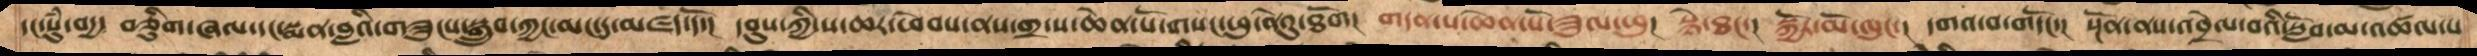དང་སུཾ་བདྱ་  བཅིུག་ཞལ་དང་སྨན་བླའི་གཟུངས་སྒྲུབ་ཀྱང་མང་དུ་མཛད་དོ་།  དབུས་ཀྱི་ས་ཆར་ཕེབས་ནས་གྲ་ས་ཆེན་པོ་གསང་ཕུ་ནེའུ་ཐོག།  གདན་ས་ཆེན་པོ་ཟུལ་ཕུ།  སྙེ་ཐང་།  སྐྱོར་མོ་ལུང་།  དགའ་བ་གདོང་།  སྔོན་ནས་འབྲེལ་བའི་སློབ་མ་འཚལ་པ
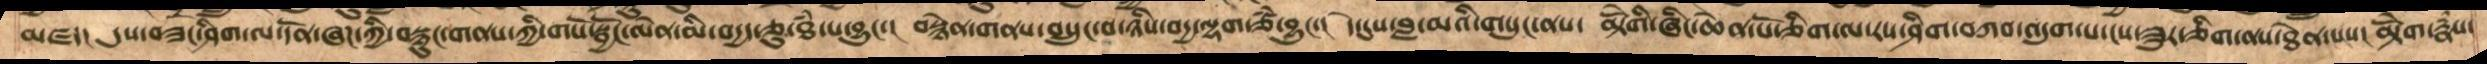མཛད།  དུས་བཟང་ཤིག་ལ་དོན་ཞཌ་ཀྱི་བསྙུང་གནས་ཀྱི་གསོ་སྦྱོང་ལེན་མི་བདྱད་ཅུ་ཐཾ་པ་བྱུང་།  བསྙེན་གནས་བསྲུང་བ་ཉིས་བདྱ་ལྷག་ཙཾ་བྱུང་།  དེ་དུས་བླ་མའི་གསུང་ནས།  མྟེོགི་ཞིང་ཆེན་པོ་ཅིག་ལ་རས་ཤིག་བཀབ་འདུག་པ་ངས་ཟུར་ཅིག་ནས་ཐེན་པས་མྟེོག་རྣཾས་
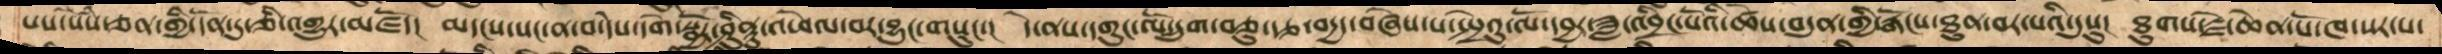པས་སེཾས་ཅན་གྱི་དོན་དུ་ཅི་འགྱུར་མཛོད།   མདངས་སང་ན་བ་དེས་དགེ་སྦྱོར་ཤིནྟུ་འཕེལ་བར་བྱུང་གསུང་།  དེ་ནས་དགུང་ལོ་དྲུག་བཅུ་རྩ་བདྱད་བཞེས་པ་སྤྲེའུ་ལོ་དབྱར་ཟླ་འབྲིང་པའི་ཚེས་བདུན་གྱི་རྒོངས་ཐུན་བར་པའི་དུསུ།   ཐུགས་རྗེ་ཆེན་པོ་ཁ་སར་ས་
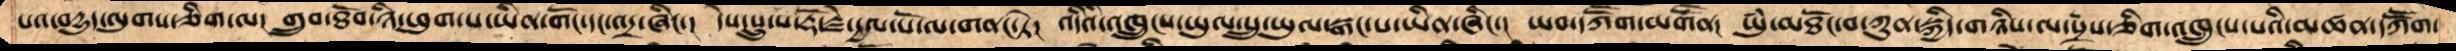པའི་བདྱུད་ལུགས་ཅིག་ལ།  གྲུབ་ཐོབ་ཉི་ཕུག་པ་ཡིན་གོང་དང་འདྲ་ཞིང་།  དེས་སྲུ་པ་རྡོ་རྗེ་དྱལ་པོ་ལ་གནང་ཏེ།  འདིའི་འཁྲུངས་ཡུལ་སྲུ་ཡུལ་སྒང་པ་ཡིན་ཞིང་།  ཡབ་དཀཽག་མགཽན།  ཡུཾ་མཐོང་བ་ཀུན་སྐྱིད་གཉིས་ལ་སྲས་ཅིག་འཁྲུངས་པའི་མཚན་དཀཽག་་
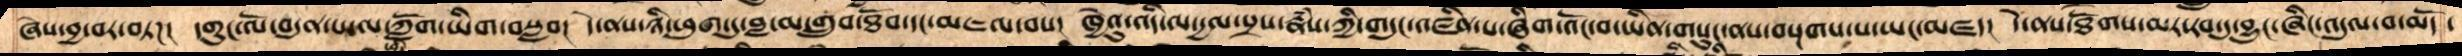ཅེས་བྱ་བར་བཏཌ།  དགུང་ལོ་བདུན་པ་ལ་ཀློག་ཡིག་བསླབ།  དེ་ནས་ཉི་ཕུག་དུ་བླ་མ་གྲུབ་ཐོབ་དང་མཇལ་བས།  ཁྱེའུ་འདི་དྱལ་སྲས་རྣཾས་ཀྱི་གདུང་འཛིན་པ་ཞིག་འོང་བ་ཡིན་གསུང་ནས་བསྔགས་པ་ཡང་མཛད།  དེ་ནས་ཐོགས་མར་རབ་ཏུ་བྱུང་ཞིང་འདུལ་བ་མདོ་
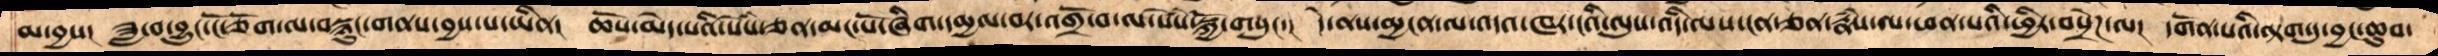མ་བྱས།  ཟླ་བ་བྱུང་ངོ་ཅོག་ལ་བསྙུང་གནས་བྱས་པ་ཡིན།  ཆོས་མེད་པའི་སེཾས་ཅན་མང་པོ་ཞིག་དམྱལ་བར་འགྲོ་བ་ལ་སེཾས་སྐྱོ་གསུང་།  དེ་ནས་མྱངན་ལ་འདའ་ཁར་ངའི་ལུས་ངན་ཅན་རྣཾས་ལ་ཕན་པའི་ཕྱིར་བསྲེཌ་ལ།  དགོན་པའི་ལྟག་དུ་བྱང་ཆུབ་
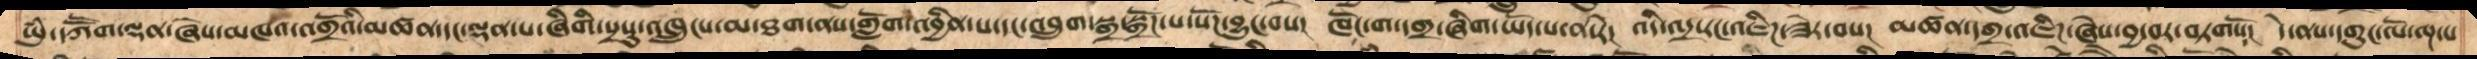ཡུཾ་དཀཽག་ལྡན་ཞེས་མཁའ་འགྲོའི་མཚན་དང་ལྡན་པ་ཞིགི་སྲསུ་འཁྲུངས་མ་ཐག་ནས་གློག་འབྱིན་པ་དང་འབྲུག་སྒྲ་སྒྲོཌ་པ་སོཌ་བྱུང་བས།  ཁོང་ག་དགྲ་ཞིག་ཡོད་པ་ན་རེ།  འདི་འདྲ་རང་འཇིཌ་ཟེར་བས།  མཚན་དགྲ་འཇིཌ་ཞེས་བྱ་བར་བཏགསོ།  དེ་ནས་དགུང་ལོ་ལྔ་པ
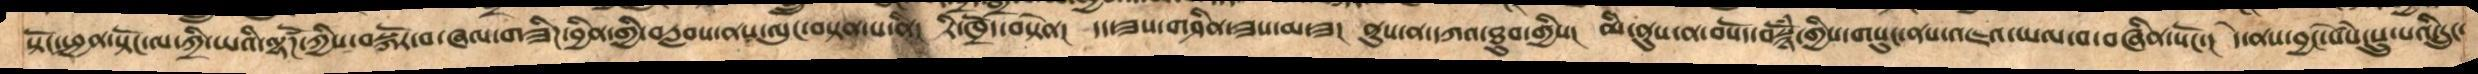སྟོང་སྤྱན་སྟོང་ལ་ཀྲི་ཡའི་ལྷཚོཌ་ཀྱིས་བསྐོར་བ་ཞལ་གཟིཌ་བྱིན་གྱི་བརླབས་ནས་ལུང་བསྟན་པ་ནི།  རི་ཁྲོད་བསྟེན།  དད་ཟས་གཤིན་ཟས་མ་ཟ།  ནུས་ན་དཀའ་ཐུབ་གྱིས།  མི་ནུས་ན་བསོད་བསྙོཾ་གྱིས་གསུང་ནས་འཇའ་ཡལ་བ་བཞིན་སོང་།  དེ་ནས་བྱང་སེཾས་སྲུ་པའི་དྲུང་
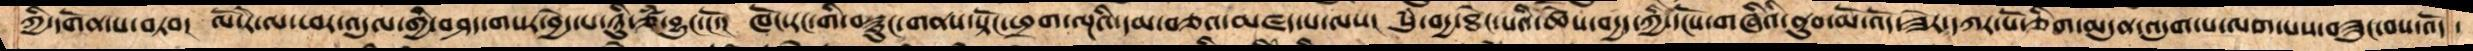ཀྱི་དགོན་པ་བཏབ།  ལོ་རེ་ལ་ཕར་འདུལ་གྱི་བཤད་གསར་བྱེད་པ་ཉིུ་ཙཾ་བྱུང་ངོ་།  ཁོང་རང་གི་བསྙུང་གནས་སྟོང་ཕྱག་ལྔའི་དམ་བཅའ་མཛད་པ་ལས།  སུཾ་བདྱ་ཐེང་པའི་ཚེས་བདྱད་ཀྱི་དངོས་གཞིའི་ནུབ་མོ་འོད་ཟེར་དཀར་པོ་ཅིག་མདུན་འདུག་པ་ལག་པས་བཟུང་བས་འོད་
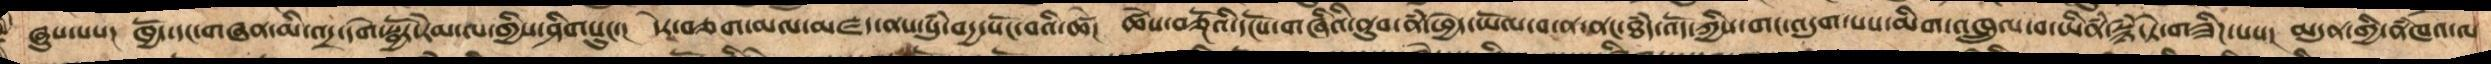ཞུས་པས།  ཁྱོད་དང་གཞན་མི་འདྲ་དགེ་སྦྱོར་རེམ་ལ་གྱིས་ཤིགསུང་།  དེར་བཅག་མལ་མཛད་ནས་སུཾ་བདྱ་སོང་བའི་ཚེ།  ཚེས་བཅྔོའི་དངོས་གཞིའི་ནུབ་ནཾ་ཕྱེད་ཡོལ་བ་ན་ནང་ཐཾད་འོད་ཀྱིས་གང་འདུག་པས་མིག་འཁྲུལ་བ་ཡིནཾ་སྙཾ་ཏེ་གཟིཌ་པས།  མདུན་གྱི་ནཾཁའ་ལ
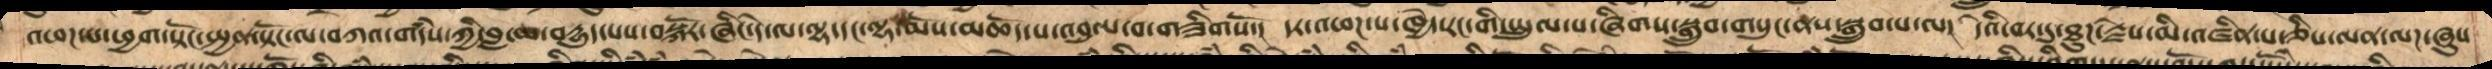འཕཌ་པ་ཕྱག་སྟོང་སྤྱན་སྟོང་ལ་བཀའ་གདཾས་ཀྱི་བླ་མ་བདྱུད་པས་བསྐོར་ཞིང་དེ་ལ་ལྷ་དང་ལྷ་མོས་མཆོད་པ་འབུལ་བ་གཟིགསོ་།  དར་འཕཌ་པ་ཁྱེད་རང་གི་སྤྲུལ་པ་ཞིགས་སྒྲུབ་གསུང་ནས་སྒྲུབ་པ་ལ།  དེའི་བར་དུ་ཐུཌ་རྗེས་མི་འཛིན་པ་ཅིས་ལན་ལཌ་ཞུས
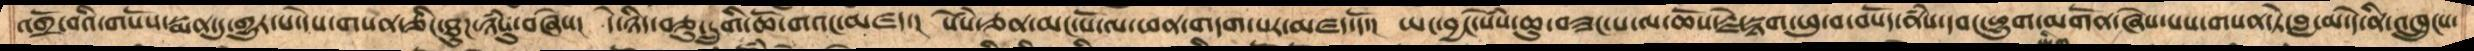འགྲོ་བའི་གསོས་སྨན་དུ་གྱུར་པ་དེས་གསན་ཅིང་ཐུཌ་ཉཾསུ་བཞེས།  དེ་ཉིད་བཅྲུགི་ཆོ་གའང་མཛད་།  སེསཾ་ཅན་མང་པོ་ལ་ཕན་གདག་པར་མཛད་དོ།  ཡང་བྱང་སེསཾ་ཆུ་བཟང་པ་ལ་ཆོས་རྗེ་སྙག་ཕུ་བ་བསོད་ནཾས་དབང་ཕྱུག་མགོན་ཞེས་པས་གསན་ཏེ་བླ་མ་དེ་ནི་འཁྲུངས་
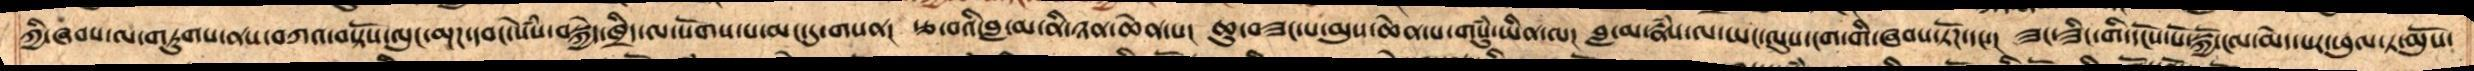ཀྱི་ཞབས་ལ་གཏུགས་ནས་བཀའ་བསྟོས་ལུང་མྔཌ་དབང་སེཾས་བསྐྱེད་ཁྲིད་ལ་སོགས་པ་མང་དུ་གསན།  རྩ་བའི་བླ་མ་ནི་ཉན་ཆེན་པ།  ཆུ་བཟང་པ་མུས་ཆེན་པ་གསུཾ་ཡིན་ལ།  བླ་མ་རྣཾས་ལ་ཡང་ལུས་ངག་གི་ཞབས་ཏོཌ་དང་།  ཟང་ཟིང་གི་དངོས་པོ་སྐྱོ་ངལ་མེད་པར་ཕུལ་ཏ་མོུས།
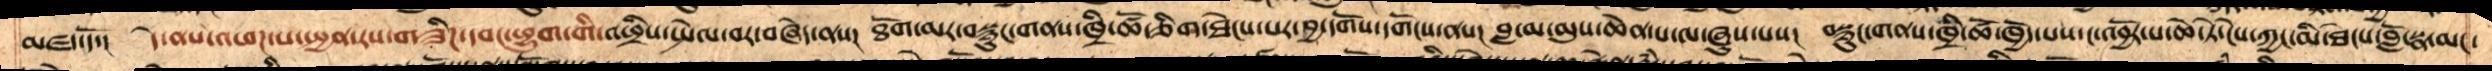མཛད་དོ་།  དེ་ནས་འཕཌ་པ་སྤྱན་རས་གཟིཌ་དབང་ཕྱུག་གི་འཕྲིས་སྤེལ་བར་བཞེད་ནས།  ཐོག་མར་བསྙུང་གནས་ཁྲི་ཚོ་ཅིག་ཐེངས་པར་བྱྲ་དགོས་དགོངས་ནས།  བླ་མ་མུས་ཆེན་པ་ལ་ཞུས་པས།  བསྙུང་གནས་ཁྲི་ཚོ་ཁྱོད་པས་ང་འབྱོར་པ་ཆེ་ཏེ་ངེས་ཀྱང་མི་ཐེངས་བློ་སྣ་མང་
